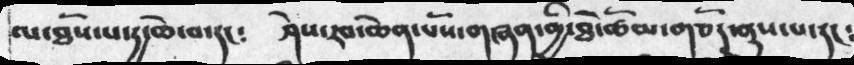ལ་ཐོས་པ་རྒྱ་ཆེ་བ་དང༴        ཤེས་རབ་ཆེན་པོས་གཞན་གྱི་ཐེ་ཚོམ་གཅོད་ནུས་པ་དང༴
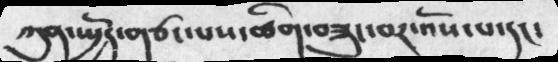ཀུན་ཡྱོད་གཙང་པས་ཚིག་བཟུང་བར་འོས་པ་དང།
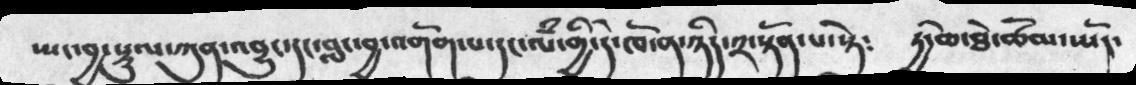ཡང་བྱ་སྡུལ་ཀུན་འབྱུང་དང་བླང་བྱ་འགོག་པ་དང་ལཾ་གྱི་དེ་ཁོ་ན་ཉིད་༢་སྟོན་པ་སྟེ༴  རྒྱ་ཆེ་ཐེ་ཚོམ་ཡོད་
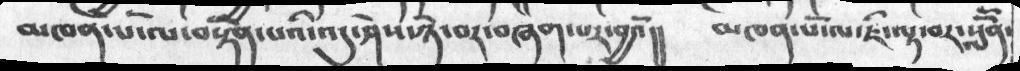འཁན་པོ་ལ་བསྟེན་པའི་འདུ་ཤེས་ཉེ་བར་བཞག་པར་བྱའོ།།  མཁན་པོ་ལ་ཇི་ལྟ་བར་སློོན་
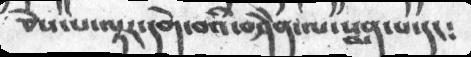ཅེས་པ་ལྟར་དགེ་བའི་བཤེེན་ལ་སྨན་པ་དང༴
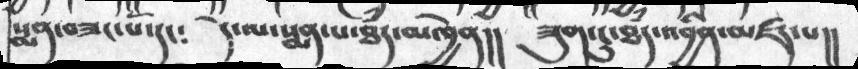སྨན་བཟད་པོ་དང༴  དེ་ལ་སྨན་པ་ཐཾད་མཁྱེན།།  ཟུག་ངུ་ཐཾད་འབྱིན་མཛད་པ།།
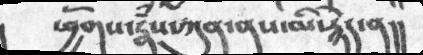ཕྱོགས་རྣཾས་ཀུན་ནས་མི་རྙེད་ན།།
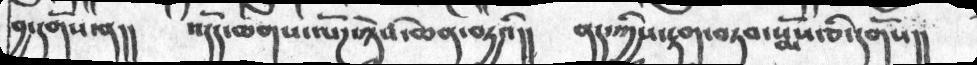བྱ་དགོས་ན།།   འདོད་ཆགས་ལོཌ་ཉེས་ཆེན་བདྱའི།།   ནད་ཀྱིས་རྟག་བཏབ་སྨོས་ཅི་དགོས།།
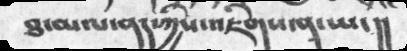ཐ་མལ་ནད་ཀྱིས་འཇིགས་ན་ཡང།།
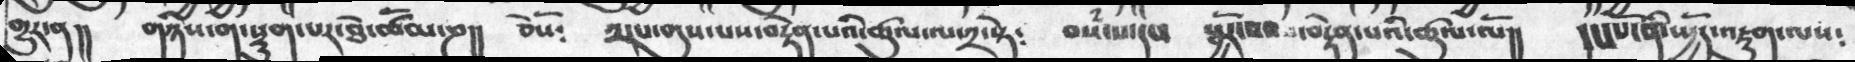གྱུར་ན།།  གཉིས་ག་སྡུག་པར་ཐེ་ཚོམ་ཎ།།  ཅེསོ༴   ༢་པ་གུས་པས་བརྟེན་པའི་ཚུལ་ལ་༢་སྟེ༴   བསཾ་པ་དང་  སྦྱོར་བས་བརྟེན་པའི་ཚུལ་ལོ།།  དང་པོ་ནི་ཡྱོད་འཇུག་ལས༴
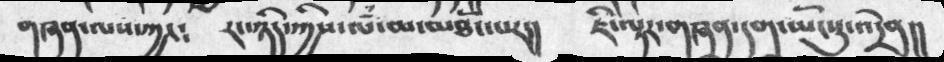གཞན་ལས་ཀྱང༴   རང་ཉིད་ཀྱིས་ལཾ་མ་མཐོང་པར།།   ཇི་ལྟར་གཞན་དག་ཡོངསུ་འདྲེན།།
